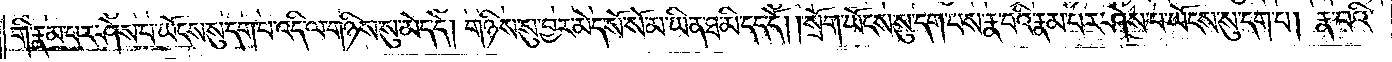གི་རྣམ་པར་ཤེས་པ་ཡོངས་སུ་དག་པ་འདི་ལ་གཉིས་སུ་མེད་དེ། གཉིས་སུ་བྱར་མེད་སོ་སོ་མ་ཡིན་ཐ་མི་དད་དོ། །སྲོག་ཡོངས་སུ་དག་པས་རྣ་བའི་རྣམ་པར་ཤེས་པ་ཡོངས་སུ་དག་པ། རྣ་བའི་
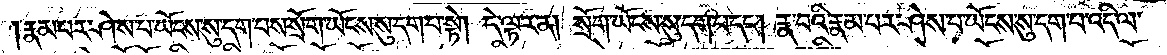རྣམ་པར་ཤེས་པ་ཡོངས་སུ་དག་པས་སྲོག་ཡོངས་སུ་དག་པ་སྟེ། དེ་ལྟར་ན། སྲོག་ཡོངས་སུ་དག་པ་དང༌། རྣ་བའི་རྣམ་པར་ཤེས་པ་ཡོངས་སུ་དག་པ་འདི་ལ་
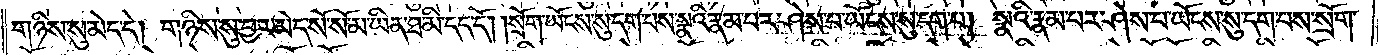གཉིས་སུ་མེད་དེ། གཉིས་སུ་བྱར་མེད་སོ་སོ་མ་ཡིན་ཐ་མི་དད་དོ། །སྲོག་ཡོངས་སུ་དག་པས་སྣའི་རྣམ་པར་ཤེས་པ་ཡོངས་སུ་དག་པ། སྣའི་རྣམ་པར་ཤེས་པ་ཡོངས་སུ་དག་པས་སྲོག་
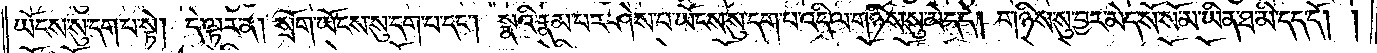ཡོངས་སུ་དག་པ་སྟེ། དེ་ལྟར་ན། སྲོག་ཡོངས་སུ་དག་པ་དང༌། སྣའི་རྣམ་པར་དག་པ་ཤེས་པ་ཡོངས་སུ་དག་པ་འདི་ལ་གཉིས་སུ་མེད་དེ། གཉིས་སུ་བྱར་མེད་སོ་སོ་མ་ཡིན་ཐ་མི་དད་དོ། །
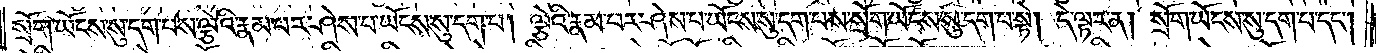སྲོག་ཡོངས་སུ་དག་པས་ལྕེའི་རྣམ་པར་ཤེས་པ་ཡོངས་སུ་དག་པ། ལྕེའི་རྣམ་པར་ཤེས་པ་ཡོངས་སུ་དག་པས་སྲོག་ཡོངས་སུ་དག་པ་སྟེ། དེ་ལྟར་ན། སྲོག་ཡོངས་སུ་དག་པ་དང༌།
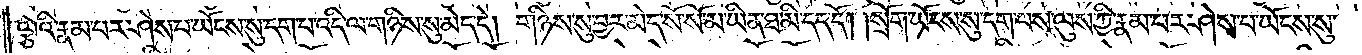ལྕེའི་རྣམ་པར་ཤེས་པ་ཡོངས་སུ་དག་པ་འདི་ལ་གཉིས་སུ་མེད་དེ། གཉིས་སུ་བྱར་མེད་སོ་སོ་མ་ཡིན་ཐ་མི་དད་དོ། །སྲོག་ཡོངས་སུ་དག་པས་ལུས་ཀྱི་རྣམ་པར་ཤེས་པ་ཡོངས་སུ་
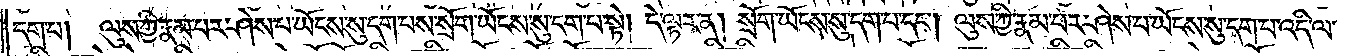དག་པ། ལུས་ཀྱི་རྣམ་པར་ཤེས་པ་ཡོངས་སུ་དག་པས་སྲོག་ཡོངས་སུ་དག་པ་སྟེ། དེ་ལྟར་ན། སྲོག་ཡོངས་སུ་དག་པ་དང༌། ལུས་ཀྱི་རྣམ་པར་ཤེས་པ་ཡོངས་སུ་དག་པ་འདི་ལ་
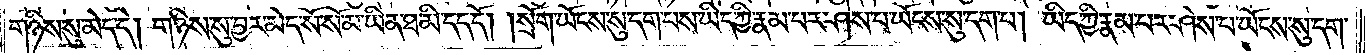གཉིས་སུ་མེད་དེ། གཉིས་སུ་བྱར་མེད་སོ་སོ་མ་ཡིན་ཐ་མི་དད་དོ། །སྲོག་ཡོངས་སུ་དག་པས་ཡིད་ཀྱི་རྣམ་པར་ཤེས་པ་ཡོངས་སུ་དག་པ། ཡིད་ཀྱི་རྣམ་པར་ཤེས་པ་ཡོངས་སུ་དག་
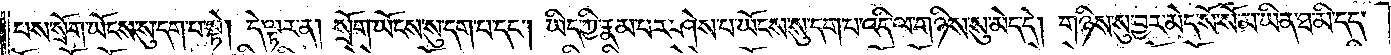པས་སྲོག་ཡོངས་སུ་དག་པ་སྟེ། དེ་ལྟར་ན། སྲོག་ཡོངས་སུ་དག་པ་དང༌། ཡིད་ཀྱི་རྣམ་པར་ཤེས་པ་ཡོངས་སུ་དག་པ་འདི་ལ་གཉིས་སུ་མེད་དེ། གཉིས་སུ་བྱར་མེད་སོ་སོ་མ་ཡིན་ཐ་མི་དད་
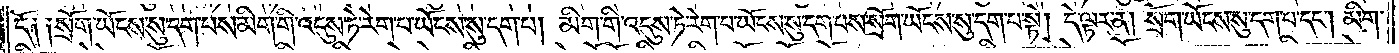དོ། །སྲོག་ཡོངས་སུ་དག་པས་མིག་གི་འདུས་ཏེ་རེག་པ་ཡོངས་སུ་དག་པ། མིག་གི་འདུས་ཏེ་རེག་པ་ཡོངས་སུ་དག་པས་སྲོག་ཡོངས་སུ་དག་པ་སྟེ། དེ་ལྟར་ན། སྲོག་ཡོངས་སུ་དག་པ་དང༌། མིག་
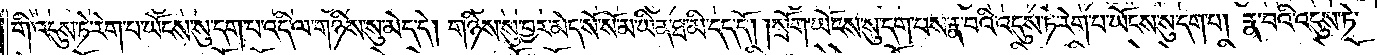གི་འདུས་ཏེ་རེག་པ་ཡོངས་སུ་དག་པ་འདི་ལ་གཉིས་སུ་མེད་དེ། གཉིས་སུ་བྱར་མེད་སོ་སོ་མ་ཡིན་ཐ་མི་དད་དོ། །སྲོག་ཡོངས་སུ་དག་པས་རྣ་བའི་འདུས་ཏེ་རེག་པ་ཡོངས་སུ་དག་པ། རྣ་བའི་འདུས་ཏེ་
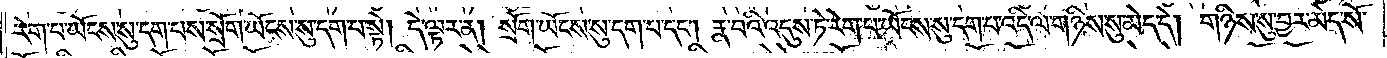རེག་པ་ཡོངས་སུ་དག་པས་སྲོག་ཡོངས་སུ་དག་པ་སྟེ། དེ་ལྟར་ན། སྲོག་ཡོངས་སུ་དག་པ་དང༌། རྣ་བའི་འདུས་ཏེ་རེག་པ་ཡོངས་སུ་དག་པ་འདི་ལ་གཉིས་སུ་མེད་དེ། གཉིས་སུ་བྱར་མེད་སོ་
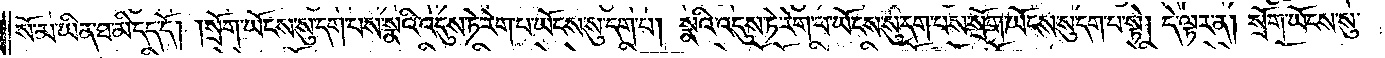སོ་མ་ཡིན་ཐ་མི་དད་དོ། །སྲོག་ཡོངས་སུ་དག་པས་སྣའི་འདུས་ཏེ་རེག་པ་ཡོངས་སུ་དག་པ། སྣའི་འདུས་ཏེ་རེག་པ་ཡོངས་སུ་དག་པས་སྲོག་ཡོངས་སུ་དག་པ་སྟེ། དེ་ལྟར་ན། སྲོག་ཡོངས་སུ་
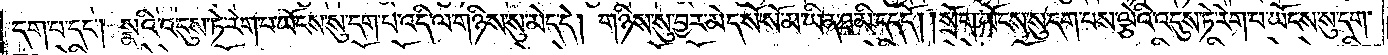དག་པ་དང༌། སྣའི་འདུས་ཏེ་རེག་པ་ཡོངས་སུ་དག་པ་འདི་ལ་གཉིས་སུ་མེད་དེ། གཉིས་སུ་བྱར་མེད་སོ་སོ་མ་ཡིན་ཐ་མི་དད་དོ། །སྲོག་ཡོངས་སུ་དག་པས་ལྕེའི་འདུས་ཏེ་རེག་པ་ཡོངས་སུ་དག་
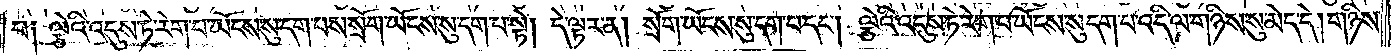པ། ལྕེའི་འདུས་ཏེ་རེག་པ་ཡོངས་སུ་དག་པས་སྲོག་ཡོངས་སུ་དག་པ་སྟེ། དེ་ལྟར་ན། སྲོག་ཡོངས་སུ་དག་པ་དང༌། ལྕེའི་འདུས་ཏེ་རེག་པ་ཡོངས་སུ་དག་པ་འདི་ལ་གཉིས་སུ་མེད་དེ། གཉིས་
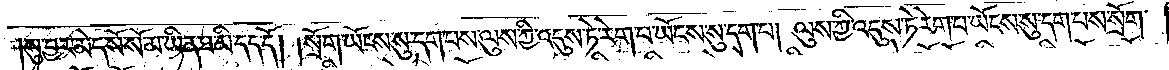སུ་བྱར་མེད་སོ་སོ་མ་ཡིན་ཐ་མི་དད་དོ། །སྲོག་ཡོངས་སུ་དག་པས་ལུས་ཀྱི་འདུས་ཏེ་རེག་པ་ཡོངས་སུ་དག་པ། ལུས་ཀྱི་འདུས་ཏེ་རེག་པ་ཡོངས་སུ་དག་པས་སྲོག་
